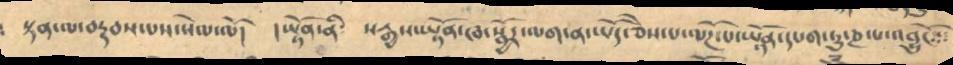སྟན་ལ་བརྡབས་པས་སེལ་ལོ། །ཡྟོན་ནི༴ སརྒྱས་ཡྟོན་ཁ་སྦྱོར་ལག་ན་ཡོད་ཅེས་པ་ལོཌ་པ་ཡྟོན་དཔག་ཏུ་ཎ་པ་འབྱུངོ
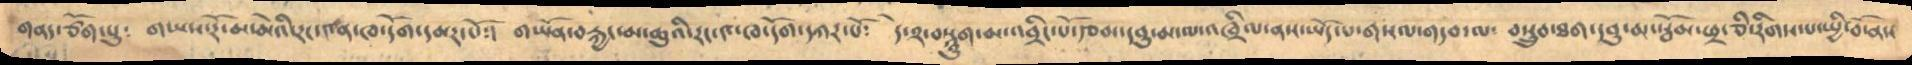གནད་ཙོག་པུ༴ གཡས་རོ་མ་མེའི་རང་༤ན་ཁ་དོག་དམར་པོ༴ གཡོན་བརྐྱང་མ་ཆུའི་རང་༤་ཁ་དོག་དཀར་པོ༴ དེ་༢་བསྙུག་མ་འབྲིང་པོ་རྩམ་དབུ་མ་ལ་འཁྲིལ་ནས་ཡོད་པ་གསལ་གདབ་ལ༴ བསྲུབ་ཐག་དབུ་མ་སྦོམ་ཕྲ་ཅི་རིགས་པ་སྤྱི་བོ་ནས
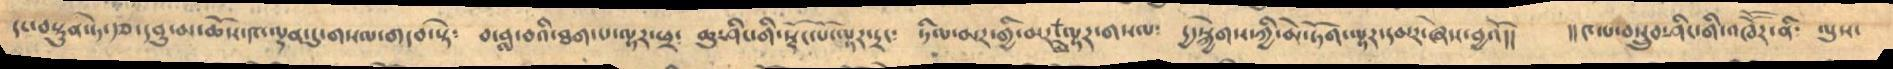དང་བསྟུན་ཏེ་རྩ་དབུ་མ་ཆོས་༤་ལྷན་དུ་གསལ་གདབ་སྟེ༴ བ་བླ་བའི་ཐག་པ་ལྟར་ཕྲ་ ཆུ་ཤིང་གི་སྡོང་པོ་ལྟར་དྲང༴ ཏིལ་མར་གྱི་མར་ལྟར་གསལ༴ དྱ་སྐྱེགས་ཀྱི་མེ་ཏོག་ལྟར་དམར་ཞེས་བྱའོ།། །།༤་པ་བསྲུབ་ཤིང་གི་འཁཽརར་ནི༴ ལུས་
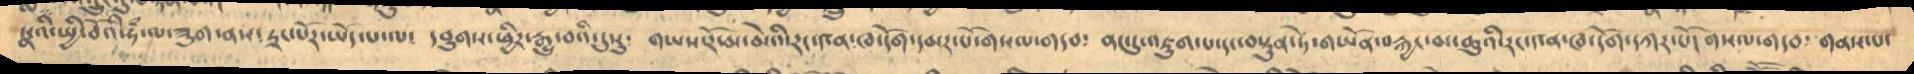སྣའི་སྤྱི་བོའི་ཧཾ་ལ་ཟུག་ནས་དྲང་པོར་ཡོད་པ་ལ་ དབུགས་ཕྱིར་རྒྱུ་བའི་དུསུ་ གཡས་རོ་མ་མེའི་རང་༤ན་ཁ་དོག་དམར་པོ་གསལ་གདབ༴ ནང་དུ་འཇུག་པ་དང་བསྟུན་ཏེ་གཡོན་བརྐྱང་མ་ཆུའི་རང་༤ན་ཁ་དོག་དཀར་པོ་གསལ་གདབ་གནས་པ་
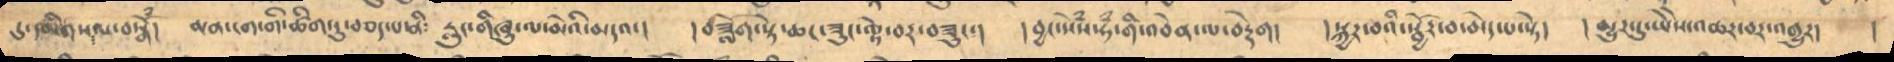དུ་དམིགསསལ་བསྒོཾ། མན་ངག་གི་ཚིག་དུ་བཅད་པ་ནི༴ རླུང་གིཞུ་ལ་མེའི་མདའ། །བཟློག་སྟེ་ཆང་ཟུང་ལྟེ་བར་བཟུང་། །བྱང་སེཾས་ཧཾ་གི་འབེན་ལ་བརྡེག། །སྐྱར་བའི་སྦྱོར་བ་མེད་པ་སྟེ། །མྱུར་དུ་ཡཻས་འཆར་བར་འགྱུར། །
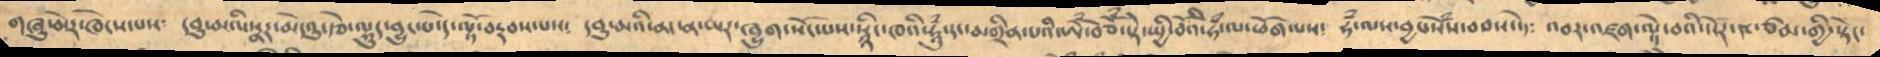གཞུ་མེར་ཁེངས་པས༴ དབུ་མའི་སྣར་མདེའུ་རྩེ་ལྷུད་བྱུང་ཡ་དེ་ལྟོ་བརྡབས་པས༴ དབུ་མའི་ནང་ན་ཡར་ཁྱུག་སོང་པས་སྙིང་ཁའི་ཧཱུཾ་དང་མགྲིན་པའི་ཨོཾ་བཅོཾ་སྟེ་སྤྱི་བོའི་ཧཾ་ལ་ཕོག་པས༴ ཧཾ་ལས་བྱང་སེཾ་བབས་ཏེ༴ འབར་འཛག་ལྟེ་བའི་སོར་༤་ཙམ་གྱི་སྟོང་
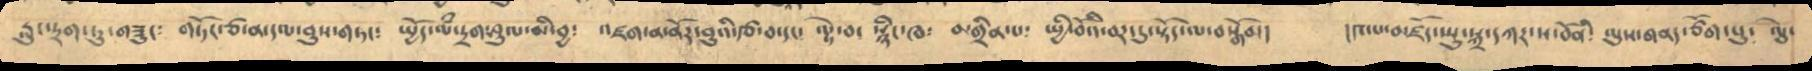རླུང་དྲག་ཏུ་གཟུང༴ གཏོང་ཙ་ན་དལ་བུས་གཏང༴ སྤྱོད་ལཾ་དྲག་ཤུལ་མི་བྱ༴ འཛག་མནོར་བུའི་རྩ་བ་དང་ ལྟེ་བ་ སྙིང་ཁ༴ མགྲིན་པ༴ སྤྱི་བོའི་བར་དུ་སྟོད་ལ་བསྒོམ། །༤་པ་མཛོད་སྤུ་སྐྲ་དཀར་ས་བོནི༴ ལུས་གནད་ཙོག་པུ་ ལྕེ་
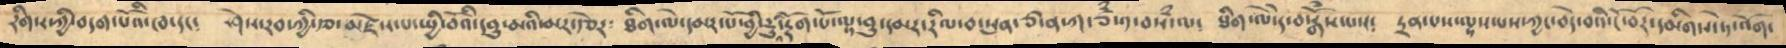རིགས་ཀྱི་བདག་པོའི་ཁ་དང༴ ཤེས་རབ་ཀྱི་རྩ་མཛེས་པ་སྤྱི་བོའི་དབུ་མའི་མར་རྩེར༴ ཐིག་ལེ་དམར་པོ་བྱི་རུ་རྟོག་པོ་ལྟ་བུ་དམར་རིལ་བ་སུན་ཙ་ན་ཀ་ཙཾ་༡་བསཾ་ལ༴ ཐིག་ལེ་དེ་བསྒོཾས་པས༴ དྲན་པས་ལྟས་པས་ཀྱང་བདེ་བའི་ངོ་བོར་དམིགས་ཏེ་འོག་
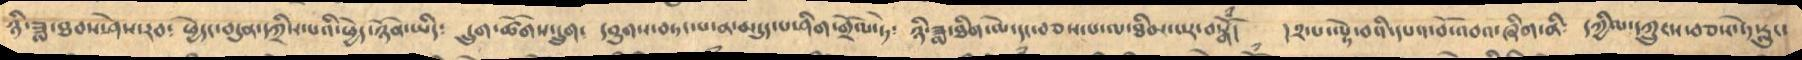ཉི་ཟླ་ཐབས་ཤེས་རབ༴ ཕྱེད་བདུན་དཀྲིས་པའི་ཕྱེད་ཉོན་ཡིད༴ དྲུག་ཚོགས་དྲུག༴ དབུགས་བཏང་པ་ན་མདུད་པ་ཤིག་གྲོལ་ཏེ༴ ཉི་ཟླ་ཐིག་ལེ་དང་བཅས་པ་ལ་ཐིམ་པར་བསྒོཾ། །༢་པ་ལྟེ་བའི་དཔའ་བོ་འབའ་ཞིག་ནི་ དཀྱིལ་དཀྲུངས་བཅས་ཏེ་རླུང་
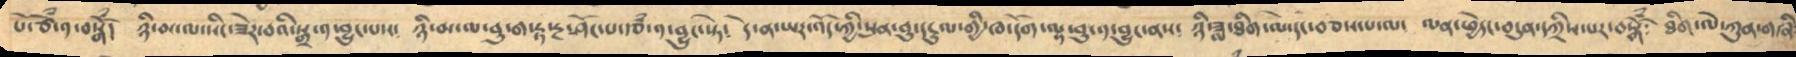པོ་ཙཾ་༡་བསྒོཾ། ཉི་མ་ལ་སིང་ཟེར་བའི་སྒྲ་༡་བྱུང་པས༴ ཉི་མ་ལ་བུ་ག་རྟ་རྔ་ཤོང་པ་རྩཾ་༡་བྱུང་སྟེ༴ དེ་ན་ཡར་འོད་ཀྱི་སུན་བུ་དངུལ་གྱི་ཁ་དོག་ལྟ་བུ་༡་བྱུང་ནས༴ ཉི་ཟླ་ཐིག་ལེ་དང་བཅས་པ་ལ་ ལན་ཕྱེད་བདུན་དཀྲིས་པར་བསྒོཾ༴ ཐིག་ལེ་ཀུན་གཞི
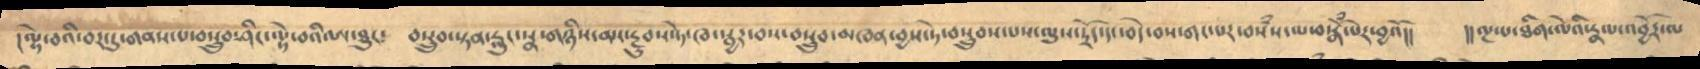།ལྟེ་བའི་བར་དུ་གནས་པ་བསྲུབ་ཤིང་ལྟེ་བའི་ཨ་ཐུང༴ བསྲུབ་སྟན་རླུང་སྣ་གཉིས་མང་རྔུབས་ཏེ་ཁ་སྦྱར་བས་བསྲུབ་མཁན་བྱས་ཏེ་བསྲུབས་པས་ལུས་དྲོད་དང་བདེ་བས་གང་པར་བསཾས་ལ་བསྒོཾ་པར་བྱའོ།། །།ལྔ་པ་ཐིག་ལེའི་རྣལ་འབྱོར་ལ
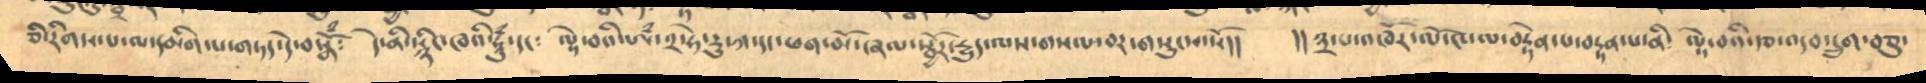ཅི་རིགས་པ་ལ་དམིགས་པ་གཏད་དེ་བསྒོཾ༴ དེ་ནི་སྙིང་ཁའི་ཧཱུཾ་དང༴ ལྟེ་བའི་ཨཾ་༢་ཧེ་རུ་ཀ་དང་ཕག་མོ་ཞལ་སྦྱོར་རྱུད་ལས་གསལ་བར་གསུངས་སོ།། །།༣་པ་འཁོར་ལོ་༤་ལ་བརྟེན་པ་བརྟན་པ་ནི༴ ལྟེ་བའི་རྩ་འདབ་དྲུག་བཅུ་
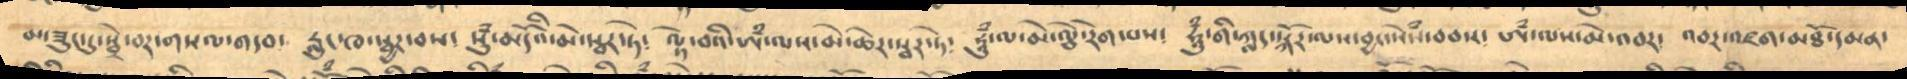མ་ཟུང་དུ་སྦྲ་བར་གསལ་གདབ་ རླུང་ཁ་སྦྱར་བས༴ སུཾ་མདོའི་མེ་སྦར་ཏེ༴ ལྟེ་བའི་ཨཾ་ལས་མེད་ཆེར་སྦར་ཏེ༴ ཧཱུཾ་ལ་མེ་ལྕེ་རེག་པས༴ ཧཱུཾ་གི་ཀླད་སྐོར་ལས་བྱང་སེཾས་བབས་ ཨཾ་ལས་མེད་འབར་ འབར་འཛག་མཐོ་དམན་
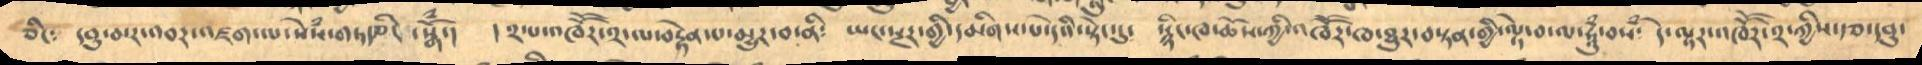ཅིང༴ དབུ་མར་འབར་འཛག་པ་སེཾས་གཏད་ཅིང་སྒོཾ་། །༢་པ་འཁཽར་༢་ལ་བརྟེན་པ་མྱུར་བ་ནི༴ ཡང་སྔར་གྱི་དམིགས་པ་དེའི་སྟེང་དུ་ སྙིང་ཁ་ཆོས་ཀྱི་འཁཽར་ཁ་ཐུར་བསྟན་གྱི་ལྟེ་བ་ལ་ཧཱུཾ་བསཾ་ དེ་ལྟར་འཁོོར་༢་ཀྱིས་རྩ་དབུ་
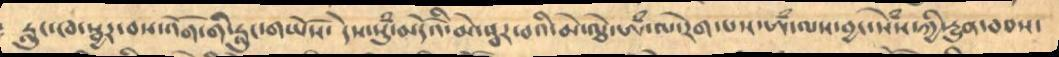རླུང་ཁ སྦྱར་བས་འོག་གི་རླུང་གཡོས་ དེས་སུཾ་མདོའི་མེ་སྦར་བའི་མེ་ལྕེ་ཨཾ་ལ་རེག་པས་ཨཾ་ལས་བྱང་སེཾས་ཀྱི་རྱུན་བབས་
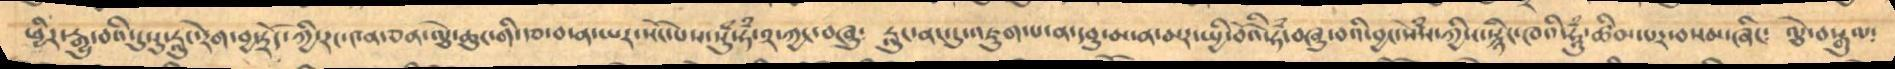ཕྱིར་རྒྱུ་བའི་དུསུ་རླུང་རེག་བྱ་ཏྲོད་ཀྱི་དང་༤ན་ཅན་ལྕེ་ཆུང་གི་རྩ་བ་ནི་ཡར་པོ་པས་སུཾ་ཧཾ་༢་ཀྱང་བཞུ༴  རླུང་ན་དུ་འཇུག་པ་ན་དབུ་མ་ན་མར་སྤྱོད་བོའི་ཧཾ་བཞུ་བའི་བྱང་སེཾས་ཀྱི་སྙིང་ཁའི་ཧཱུཾ་ཚིམ་པར་བསམ་ཞིང༴ ལྕེ་བསྒྱུལ༴
